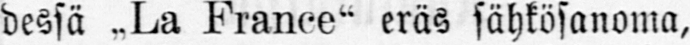dessä eräs sähkösanoma,
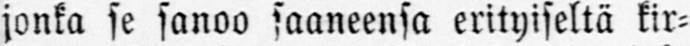jonka se sanoo saaneensa erityiseltä kir-
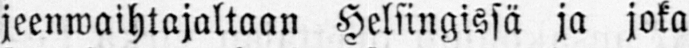jeenwaihtajaltaan Helsingissä ja joka
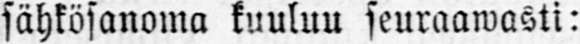sähkösanoma kuuluu seuraawasti:
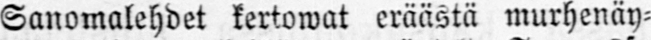Sanomalehdet kertowat eräästä murhenäy-
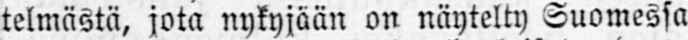telmästä, jota nykyjään on näytelty Suomessa
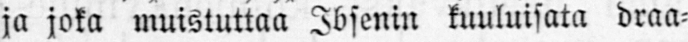ja joka muistuttaa Ibsenin kuuluisata draa-
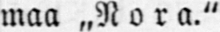maa „Nora."
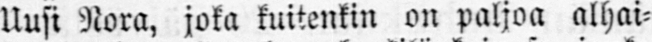Uusi Nora, joka kuitenkin on paljoa alhai-
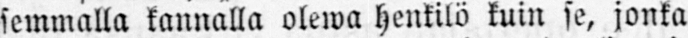semmalla kannalla olewa henkilö kuin se, jonka
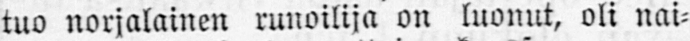tuo norjalainen runoilija on luonut, oli nai-
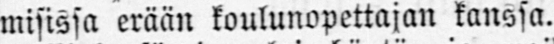misissa erään koulunopettajan kanssa.
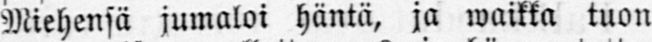Miehensä jumaloi häntä, ja waikka tuon
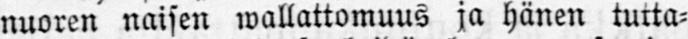nuoren naisen wallattomuus ja hänen tutta-
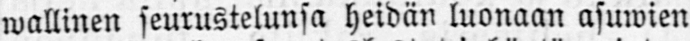wallinen seurustelunsa heidän luonaan asuwien
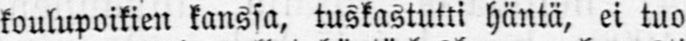koulupoikien kanssa, tuskastutti häntä, ei tuo
